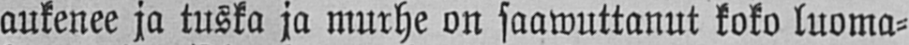aukenee ja tuska ja murhe on saawuttanut koko luoma-
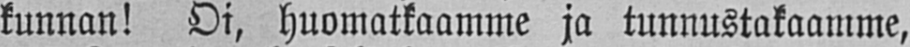kunnan! Oi, huomatkaamme ja tunnustakaamme,
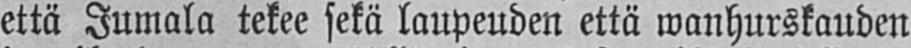että Jumala tekee sekä laupeuden että wanhurskauden
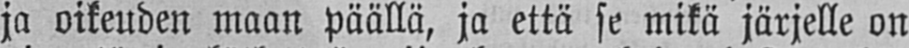ja oikeuden maan päällä, ja että se mikä jäljelle on
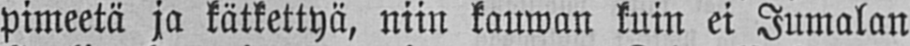pimeetä ja kätkettyä, niin kauwan kuin ei Jumalan
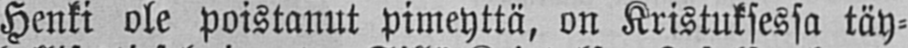Henki ole poistanut pimeyttä, on Kristuksessa täy-
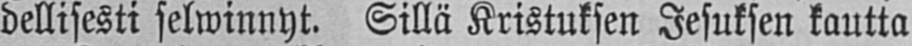dellisesti selwinnyt. Sillä Kristuksen Jesuksen kautta
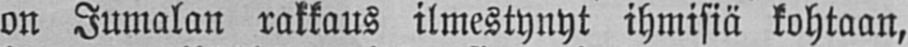on Jumalan rakkaus ilmestynyt ihmisiä kohtaan,
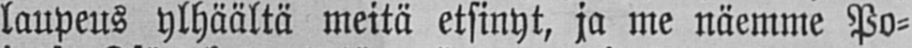laupeus ylhäältä meitä etsinyt, ja me näemme Po-
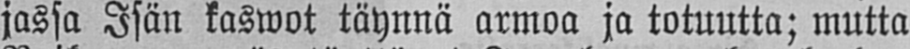jassa Isän kaswot täynnä armoa ja totuutta; mutta
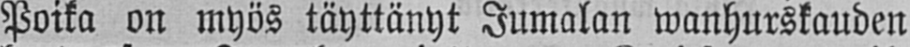Poika on myös täyttänyt Jumalan wanhurskauden
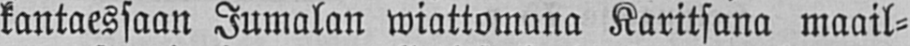kantaessaan Jumalan wiattomana Karitsana maail-
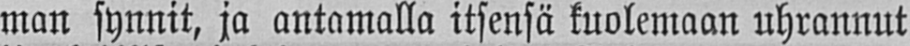man synnit, ja antamalla itsensä kuolemaan uhrannut
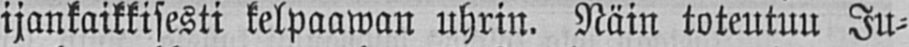ijankaikkisesti kelpaawan uhrin. Näin toteutuu Ju-
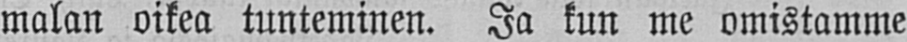malan oikea tunteminen. Ja kun me omistamme
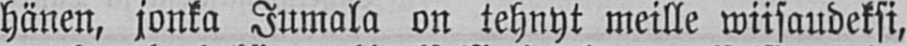hänen, jonka Jumala on tehnyt meille wiisaudeksi,
